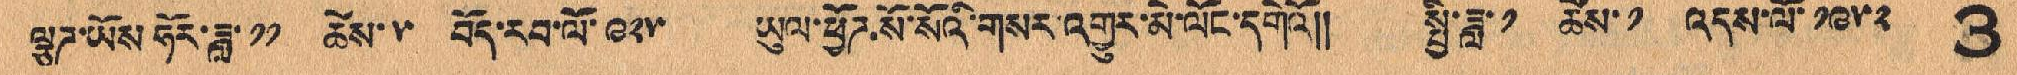ལྕཊ་ཡོས ཧོར་ཟླ་ ༡༡ ཚེས་ ༥ བོད་རབ་པོ་༩༢༥ ཡུལ་ཕྱོཊ་སོ་སོའི་གསར་འགྱུར་མེ་ལོང་དགེའོ།། སྤྱི་ཟླ་ ༡ ཚེས་ ༡ འདས་ལོ་ ༡༩༥༢ 3
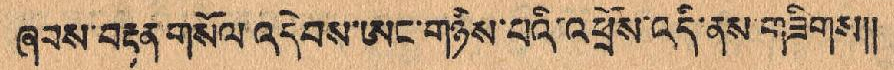ཞབས་བརྟན་གསོལ་འདེབས་ཨང་གཉིས་པའི་འཕྲོས་འདི་ནས་གཟིགས།།
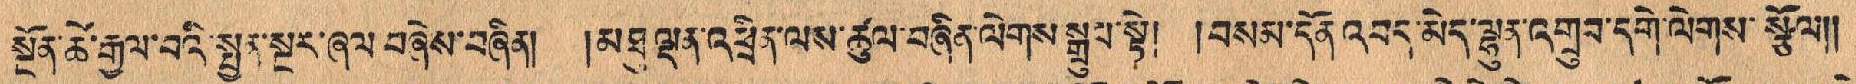སྔོན་ཚེ་རྒྱལ་བའི་སྤྱན་སྔར་ཞལ་བཞེས་བཞིན། །མཐུ་ལྡན་འཕྲིན་ལས་ཚུལ་བཞིན་ལེགས་སྒྲུབ་སྟེ། །བསམ་དོན་འབད་མེད་ལྷུན་འགྲུབ་དགེ་ལེགས་སྩོལ།།
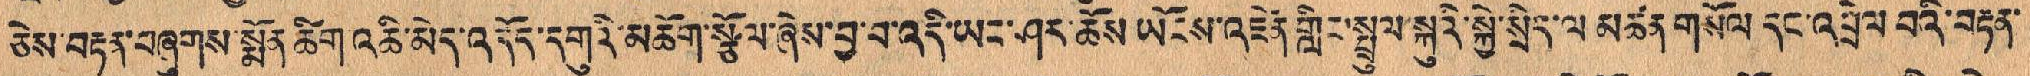ཅེས་བརྟན་བཞུགས་སྨོན་ཚིག་འཆི་མེད་འདོད་དགུའི་མཆོག་སྩོལ་ཞེས་བྱ་བ་འདི་ཡང་ཤར་ཆོས་ཡོངས་འཛིན་གླིང་སྤྲུལ་སྐུའི་སྐྱེ་སྲིད་ལ མཚན་གསོལ དང་འབྲེལ བའི་བརྟན་
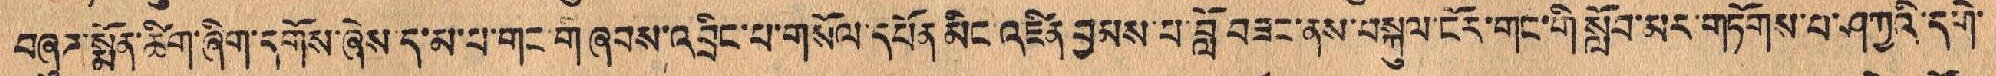བཞུཊ་སྨོན་ཚིག་ཞིག་དགོས་ཞེས ད་མ་པ་གང་གི་ཞབས་འབྲིང་པ་གསོལ་དཔོན་མིང་འཛིན་བྱམས་པ་བློ་བཟང་ནས་བསྐུལ་ངོར་གང་གི་སློབ་མར་གཏོགས་པ་ཤཀྱའི་དགེ་
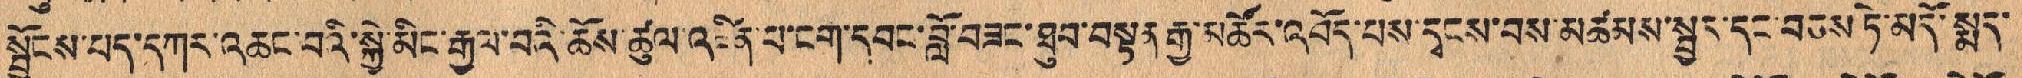སྦྱོངས་པད་དཀར་འཆང་བའི་སྐྱེ་མིང་རྒྱལ་བའི་ཆོས་ཚུལ་འཛིན་པ་ངག་དབང་བློ་བཟང་ཐུབ་བསྟན་རྒྱ་མཚོར་འབོད་པས་དྭངས་བས་མཚམས་སྦྱར་དང་བཅས་ཏེ་མདོ་སྨད་
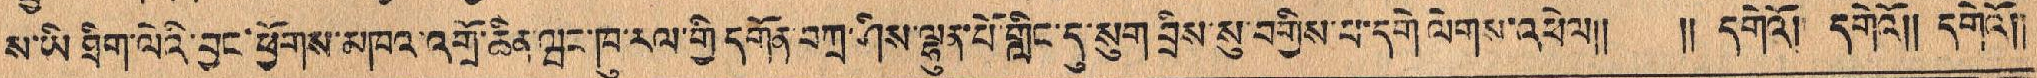ས་ཡི་ཐིག་ལེའི་བྱང་ཕྱོགས་མཁའ་འགྲོ་ཆེན་ཝང་ཁུ་རལ་གྱི་དགོན་བཀྲ་ཤིས་ལྷུན་པོ་གླིང་དུ་སུག བྲིས་སུ་བགྱིས་པ་དགེ་ལེགས་འཕེལ།། །།དགེའོ། དགེའོ།། དགེའོ།།
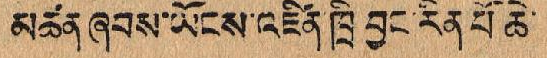མཚན ཞབས་ཡོངས་འཛིན་ཁྲི བྱང་རིན་པོ ཆེ་
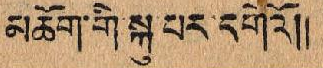མཆོག་གི་སྐུ་པར་དགེའོ།།
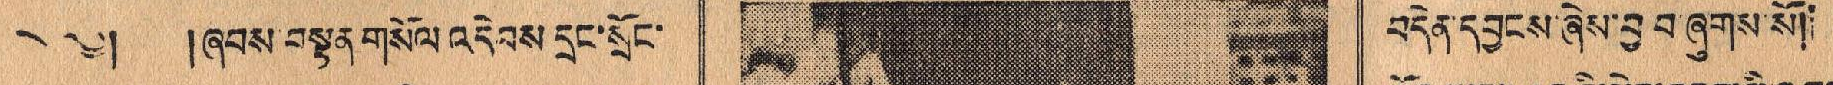༄༅། །ཞབས་བསྟན་གསོལ་འདེབས་དྲང་སྲོང་ བདེན་དབྱངས་ཞེས་བྱ བ་ཞུགས་སོ།།
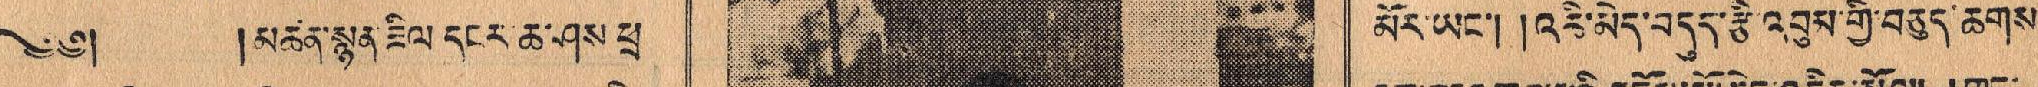༄༅། །མཚན་སྙན་ཟིལ་དངར་ཆ་ཤས་ཕྲ མོར་ཡང་། །འཆི་མེད་བདུད་རྩི་འབུམ་གྱི་བཅུད་ཆགས་
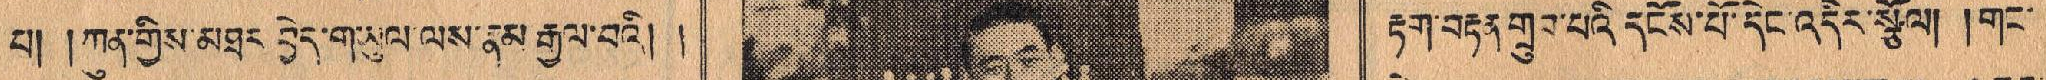པ། །ཀུན་གྱིས་མཐར བྱེད་གཡུལ་ལས་རྣམ་རྒྱལ་བའི། ། རྟག་བརྟན་གྲུབ་པའི་དངོས་པོ་དེང་འདིར་སྩོལ། །གང་
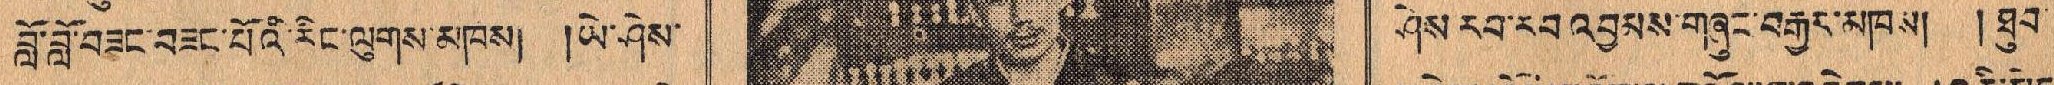བློ་བློ་བཟང་བཟང་པོའི་རིང་ལུགས་མཁས། །ཡེ་ཤེས་ ཤེས་རབ་རབ་འབྱམས་གཞུང་བརྒྱར་མཁས། །ཐུབ་
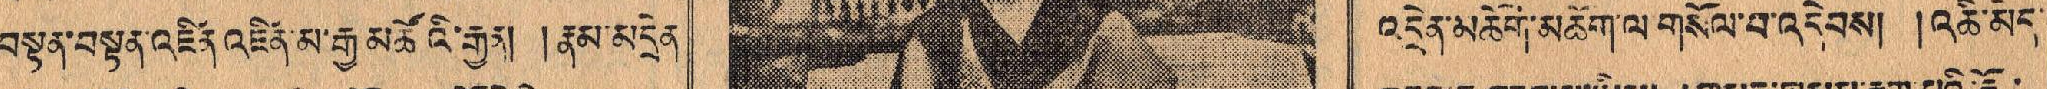བསྟན་བསྟན་འཛིན་འཛིན་མ་རྒྱ་མཚོའི་རྒྱན། །རྣམ་མདྲེན འདྲེན་མཆོག་མཆོག་ལ་གསོལ་བ་འདེབས། །འཆི་མེད་
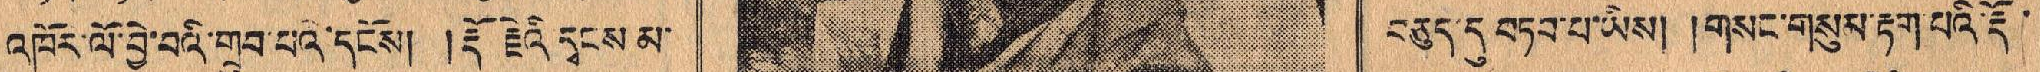འཁོར་ལོ་བྱེ་བའི་གྲུབ་པའི་དངོས། །རྡོ རྗེའི་དྭངས་མ་ བཅུད་དུ་བཏབ་པ་ཡིས། །གསང་གསུམ་རྟག་པའི་རྡོ་
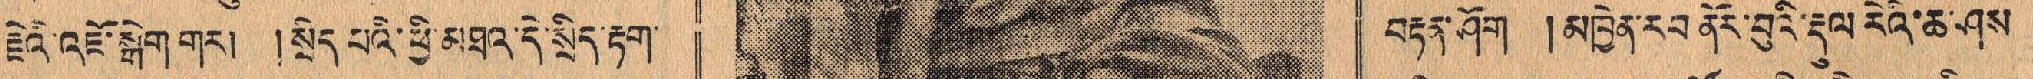རྗེའི་འཇོ་སྒེག་གར། །སྲིད་པའི་ཕྱི་མཐར་དེ་སྲིད་རྟག་ བརྟག་ཤོག །མཁྱེན་རབ་ནོར་བུའི་རྡུལ་རེའི་ཆ་ཤས་
